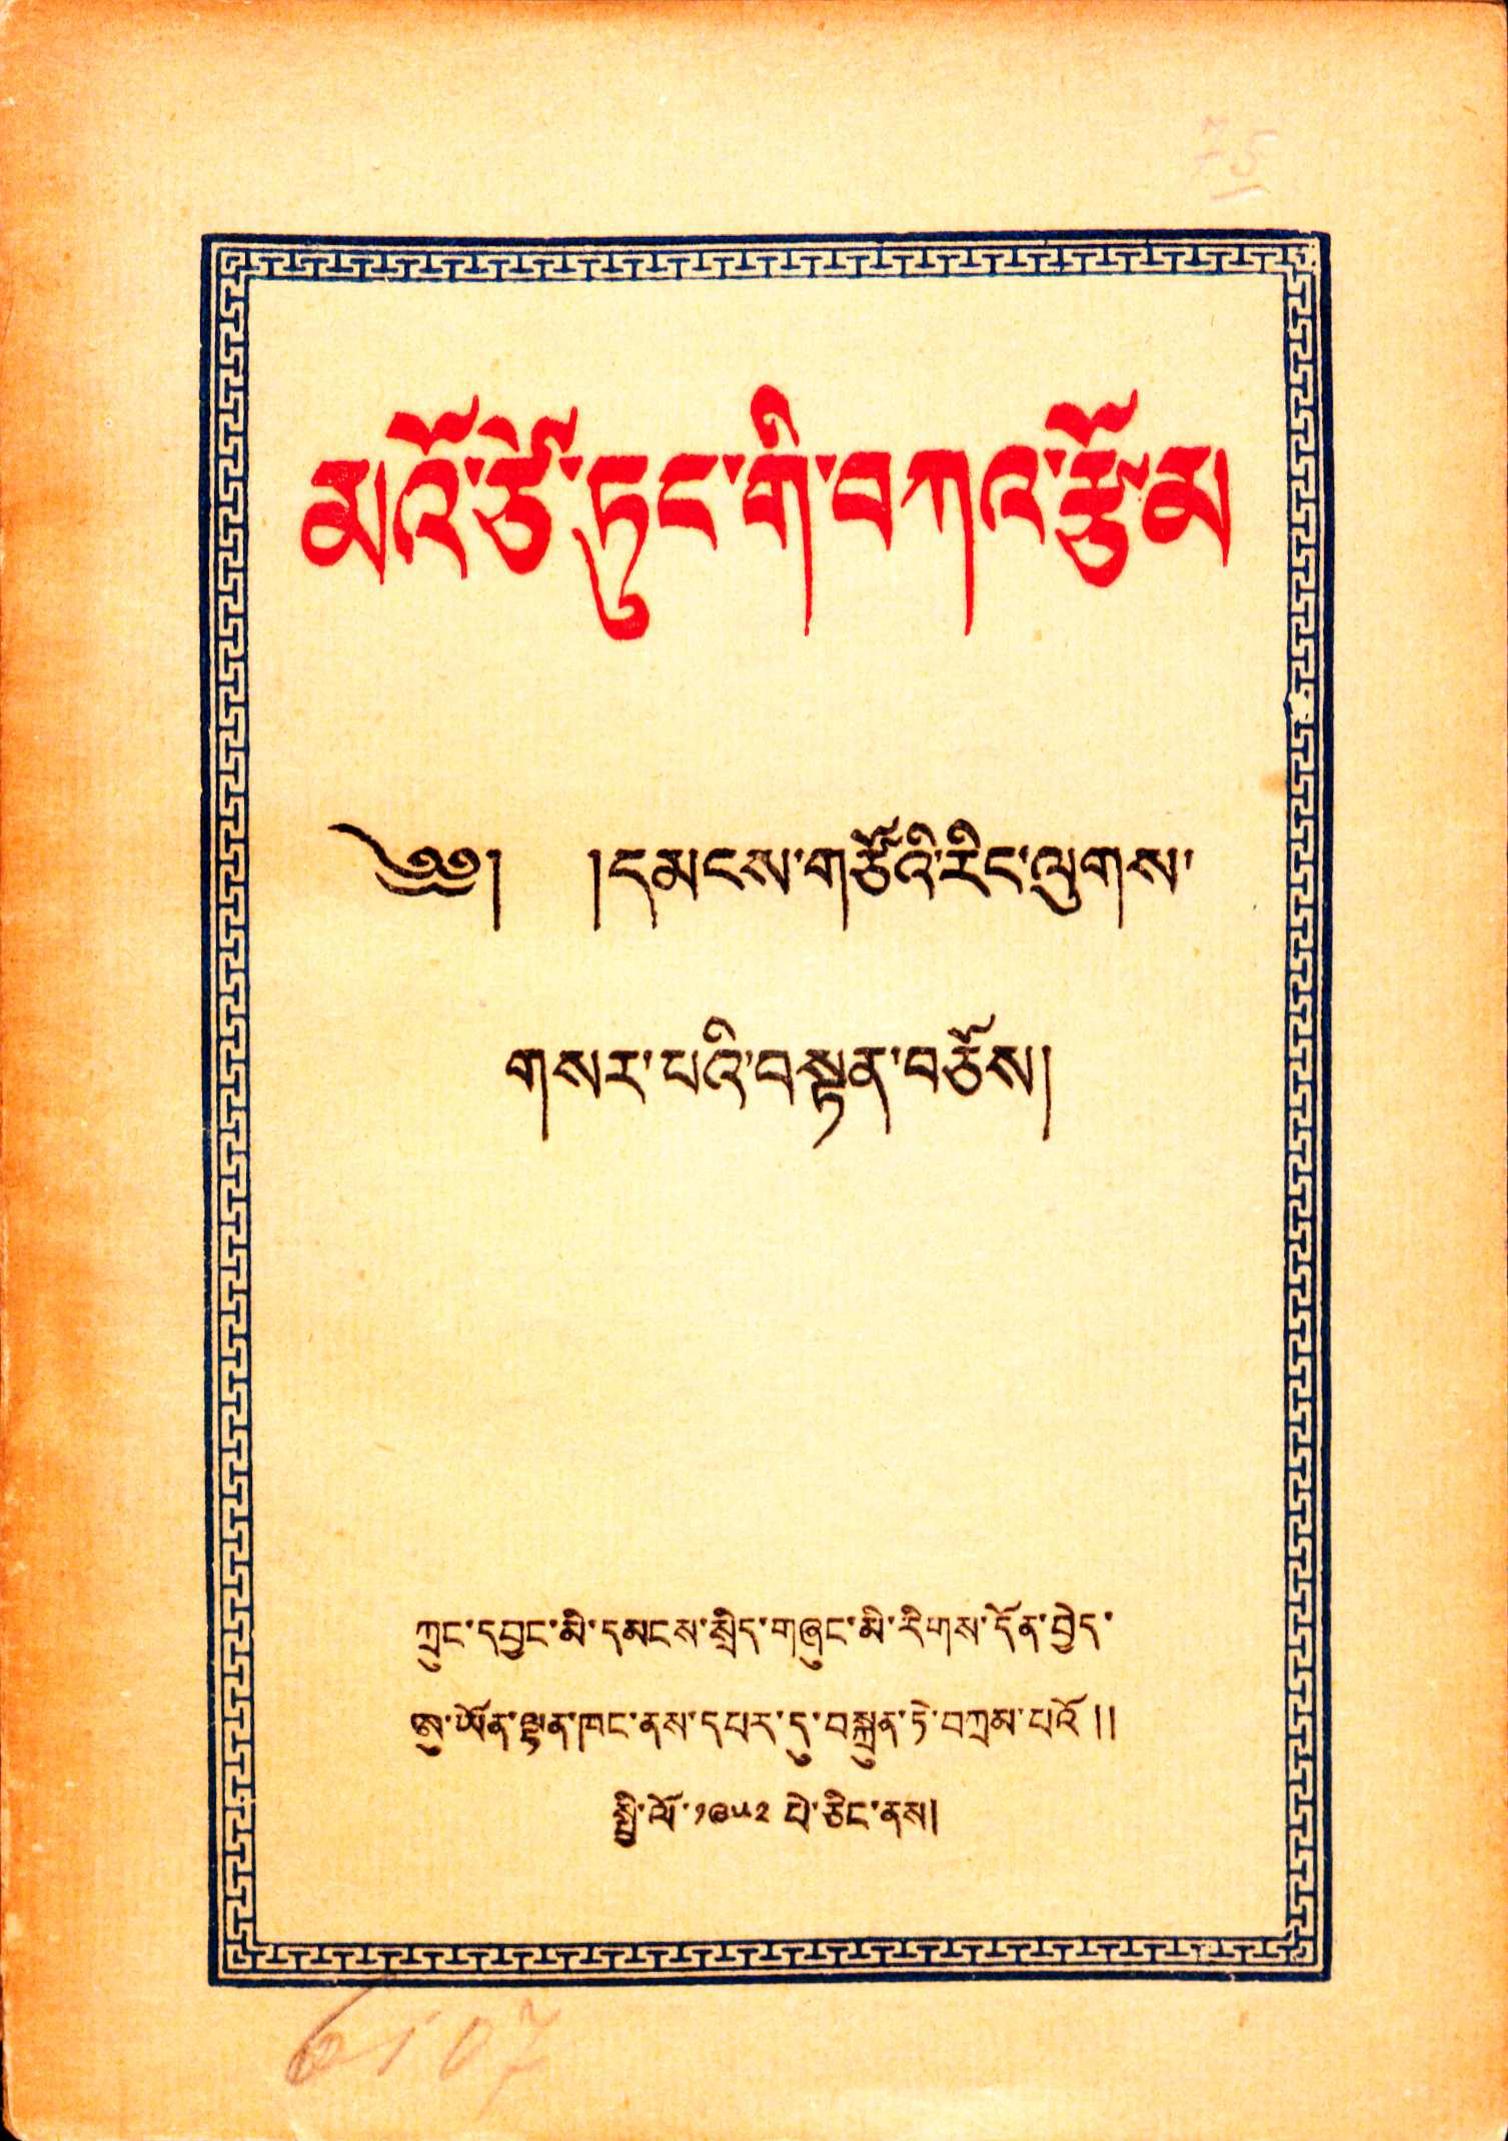མའོ་ཙེ་ཏུང་གི་བཀའ་རྩོམ
༄༅། །དམངས་གཙོའི་རིང་ལུགས་
གསར་པའི་བསྟན་བཅོས།
ཀྲུང་དབྱང་མི་དམངས་སྲིད་གཞུང་མི་རིགས་དོན་བྱེད་
ཨུ་ཡོན་ལྷན་ཁང་ནས་དཔར་དུ་བསྐྲུན་ཏེ་བཀྲམ་པའོ ༎
སྤྱི་ལོ་༡༩༥༢ པེ་ཅིང་ནས།
